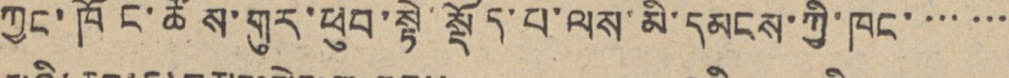ཀྱང་ཁོང་ཚོས་གུར་ཕུབ་སྟེ་སྡོད་པ་ལས་མི་དམངས་ཀྱི་ཁང་་་་་་་
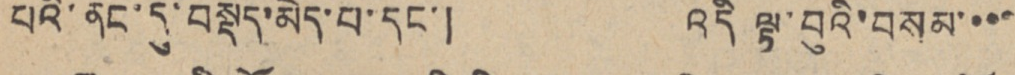པའི་ནང་དུ་བསྡད་མེད་པ་དང་། འདི ལྟ་བུའི་བསམ་་་་
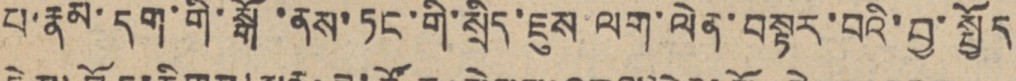པ་རྣམ་དག་གི་སྒོ་ནས་ཏང་གི་སྲིད་ཇུས ལག་ལེན་བསྟར་བའི་བྱ་སྤྱོད
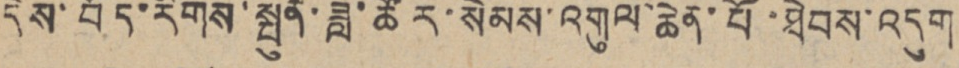དེས་བོད་རིགས་སྤུན་ཟླ་ཚོར་སེམས་འགུལ་ཆེན་པོ་ཐེབས་འདུག
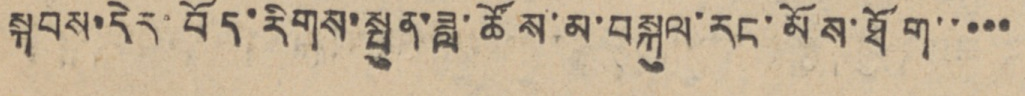སྐབས་དེར་བོད་རིགས་སྤུན་ཟླ་ཚོས་མ་བསྐུལ་རང་མོས་ཐོག་་་་་
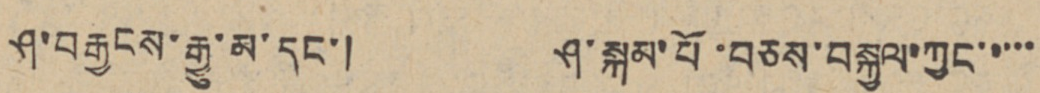ཤ་བརྒྱངས་རྒྱུ་མ་དང་། ཤ་སྐམ་པོ་བཅས་བསྐྱལ་ཀྱང་་་་་
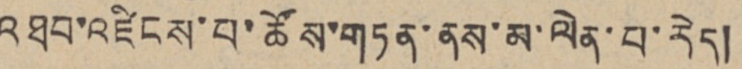འཐབ་འཛིངས་པ་ཚོས་གཏན་ནས་མ་ལེན་པ་རེད།
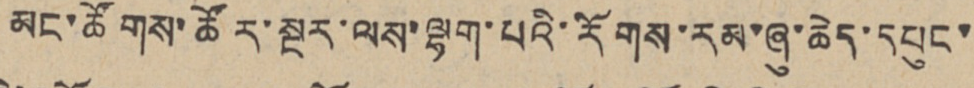མང་ཚོགས་ཚོར་སྔ་རླས་ལྷག་པའི་རོགས་རམ་ཞུ་ཆེད་དཔུང་
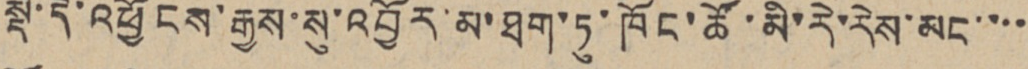སྡེ་དེ་འཕྱོངས་རྒྱས་སུ་འབྱོར་མ་ཐག་ཏུ་ཁོང་ཚོ་མི་རེ་རེས་མང་་་་
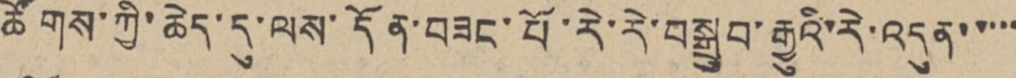ཚོགས་ཀྱི་ཆེད་དུ་ལས་དོན་བཟང་པོ་རེ་རེ་བསྒྲུབ་རྒྱུའི་རེ་འདུན་་་་་
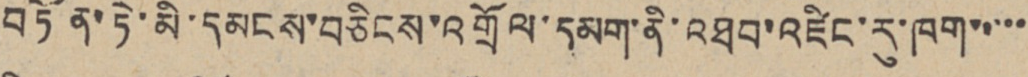བཏོན་ཏེ་མི་དམངས་བཅིངས་འགྲོལ་དམག་ནི་འཐབ་འཛིང་རུ་ཁག་་་་་
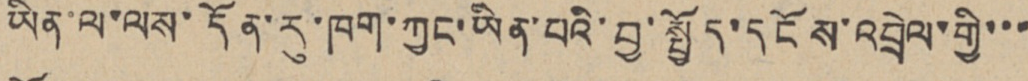ཡིན་ལ་ལས་དོན་རུ་ཁག་ཀྱང་ཡིན་པའི་བྱ་སྤྱོད་དངོས་འབྲེལ་གྱི་་་
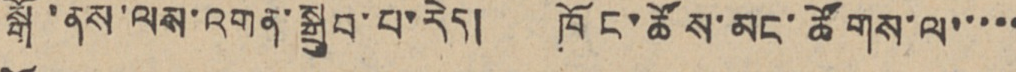སྒོ་ནས་ལས་འགན་སྒྲུབ་པ་རེད། ཁོང་ཚོས་མང་ཚོགས་ལ་་་་་
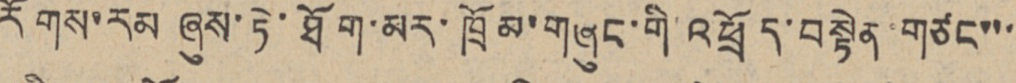རོགས་རམ ཞུས་ཏེ་ཐོག་མར་ཁྲོམ་གཞུང་གི་འཕྲོད་བསྟེན་གཙང་་་
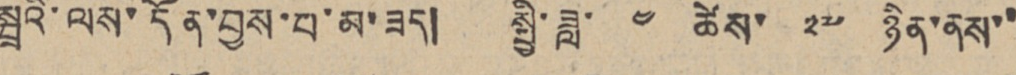སྦྲའི་ལས་དོན་བྱས་པ་མ་ཟད། སྤྱི་ཟླ་ ༤ ཚེས་ ༢༧ ཉིན་ནས་་
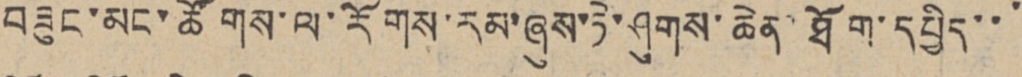བཟུང་མང་ཚོགས་ལ་རོགས་རམ་ཞུས་ཏེ་ཤུགས་ཆེན་ཐོག་དཔྱིད་་་
